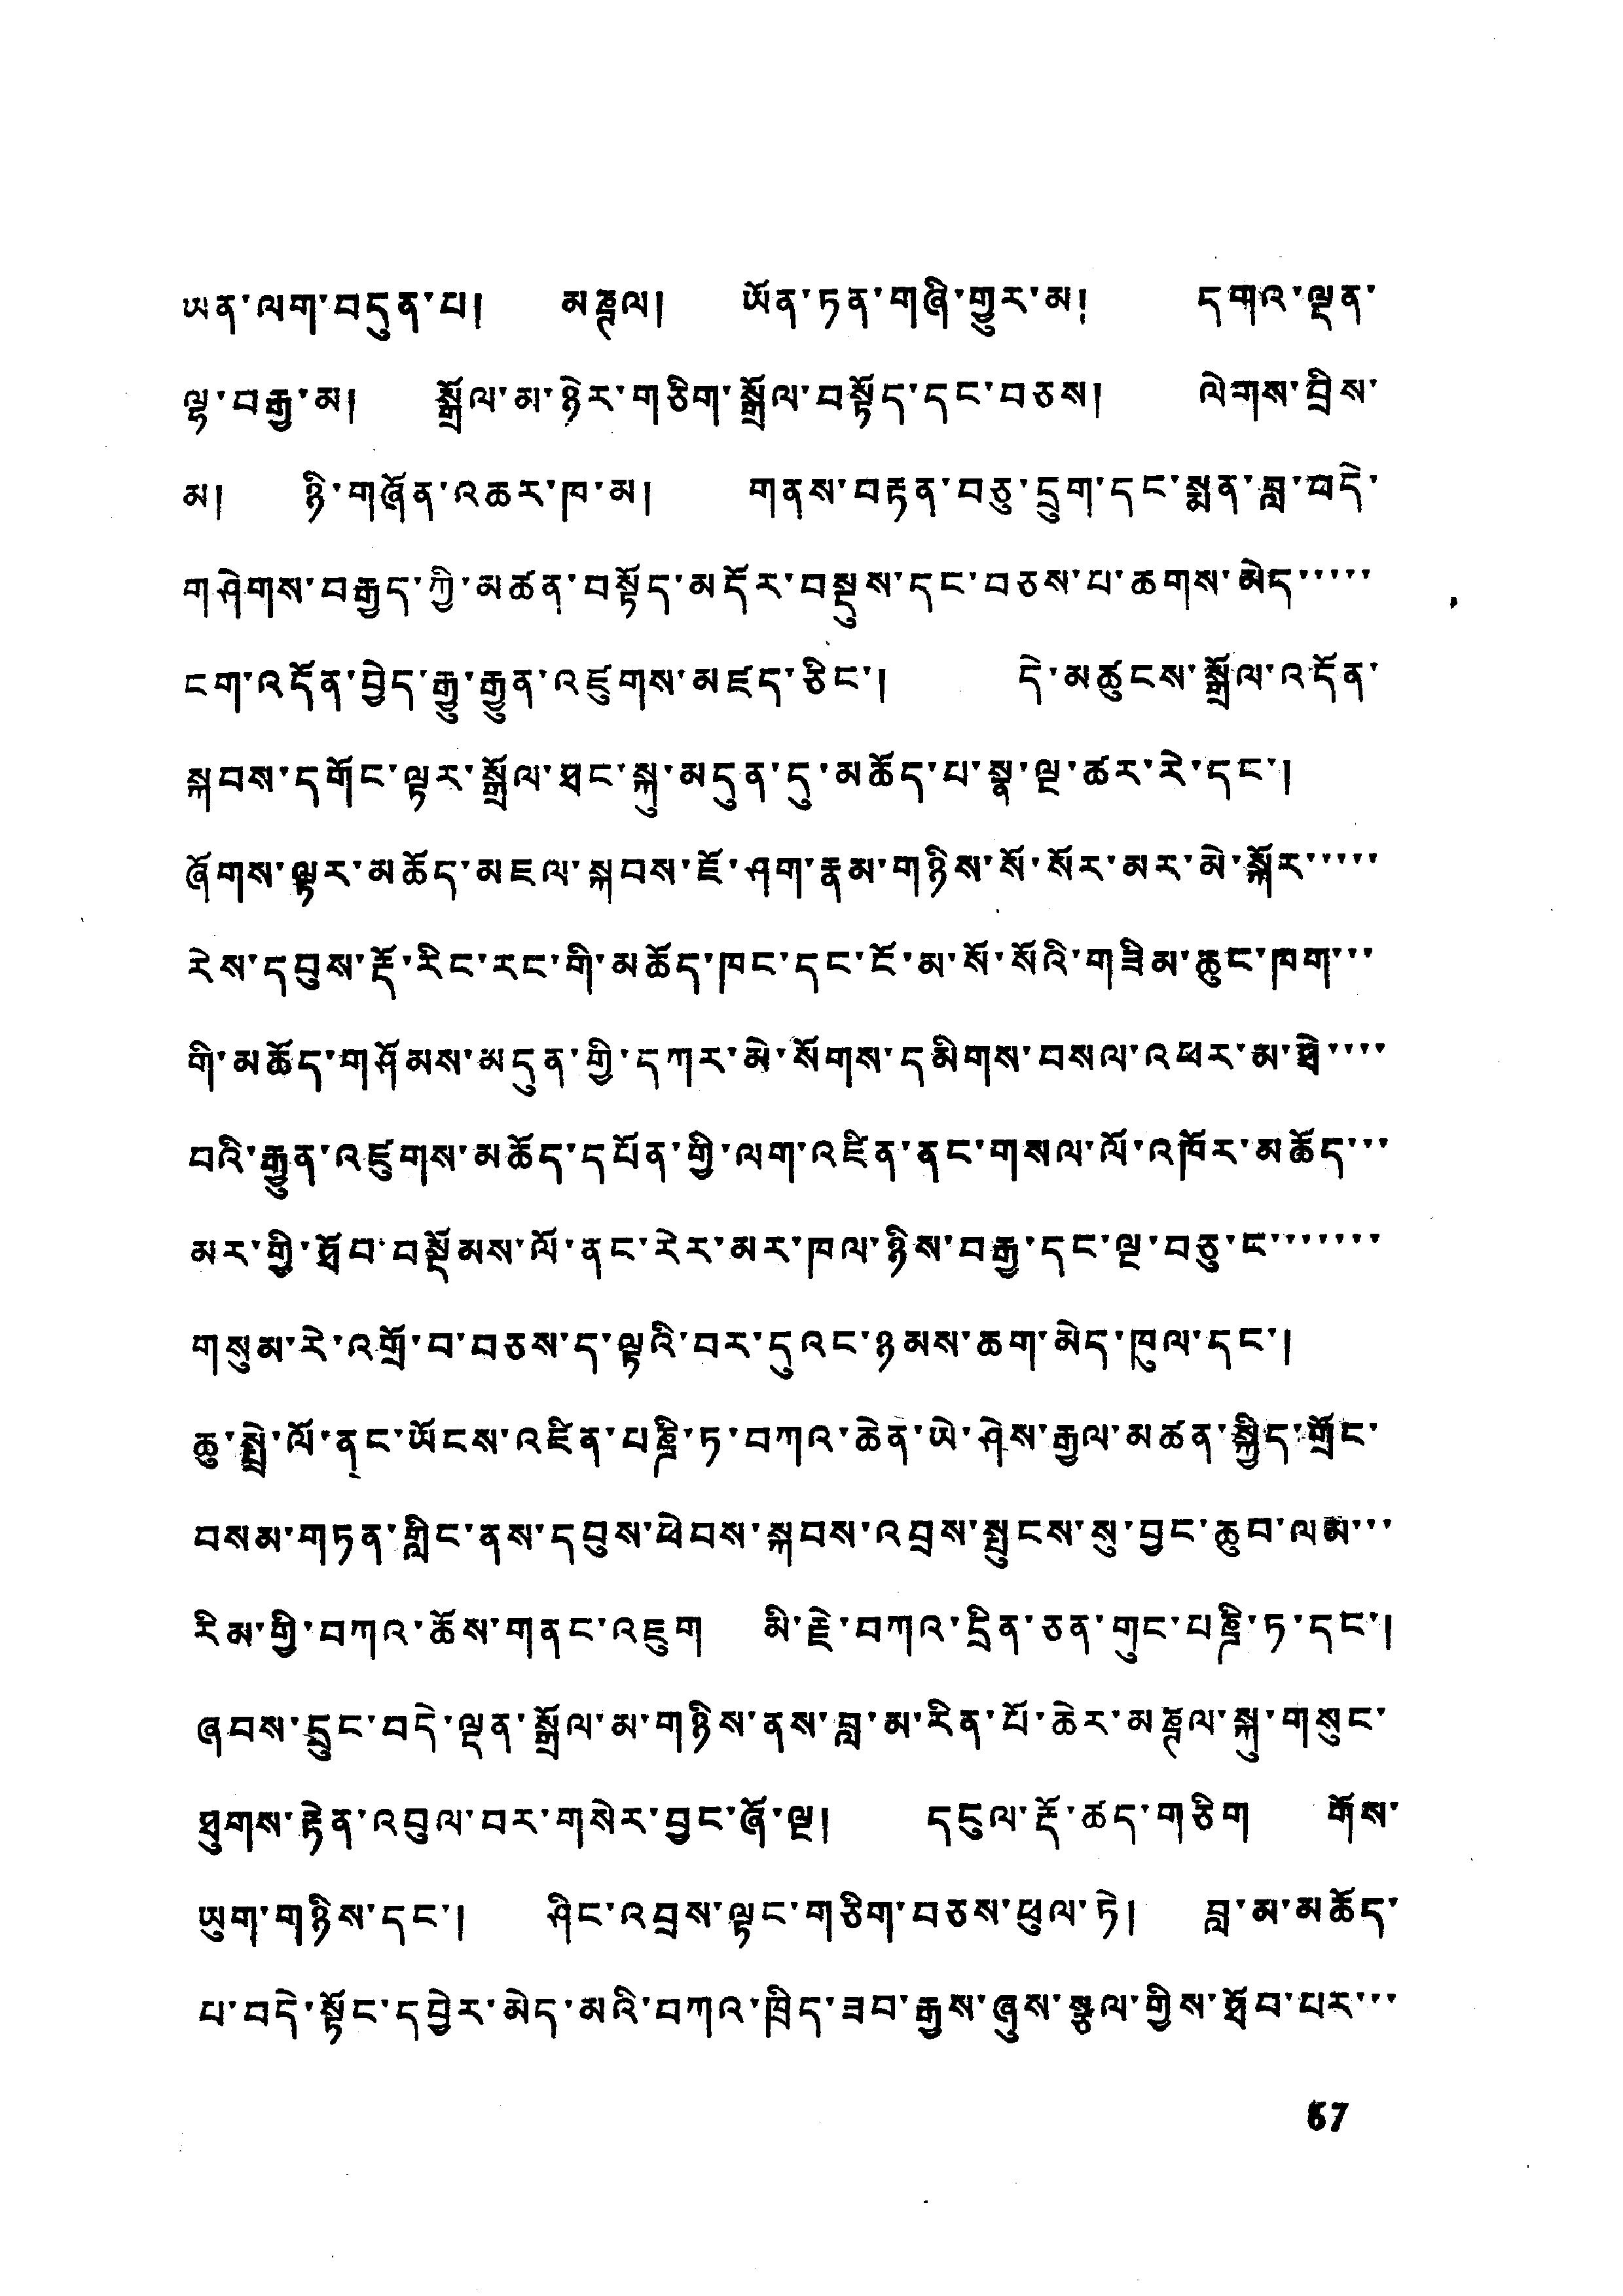ཡན་ལག་བདུན་པ་། མཎྚལ། ཡོན་ཏན་གཞི་གུ་མ། དགའ་ལྡན་
ལྷ་བརྒྱ་མ། སྒྲོལ་མ་ཉེར་གཅིག་སྒྲོལ་བསྟོད་དང་བཅས། ལེགས་བྲིས་
མ། ཉི་གཞོན་འཆར་ཁ་མ། གནས་བརྟན་བཅུ་དྲུག་དང་སྨན་བླ་བདེ་
གཤེགས་བརྒྱད་ཀྱི་མཚན་བསྟོད་མདོར་བསྡུས་དང་བཅས་པ་ཆགས་མེད་་་་་
ངག་འདོན་བྱེད་རྒྱུན་འཛུགས་མཛད་ཅིང་། དེ་མཚུངས་སྒྲོལ་འདོན་
སྐབས་དགོང་ལྟར་སྒྲོལ་ཐང་སྐུ་མདུན་དུ་མཆོད་པ་སྣ་ལྔ་ཚར་རེ་དང་།
ཞོགས་ལྟར་མཆོད་མཇལ་སྐབས་ཇོ་ཤག་རྣམ་གཉིས་སོ་སོར་མར་མེ་སྐོར་་་་་
རེས་དབུས་རྡོ་རིང་རང་གི་མཆོད་ཁང་དང་ངོ་མ་སོ་སོའི་གཟིམ་ཆུང་ཁག་་་
གི་མཆོད་གཤོམས་མདུན་གྱི་དཀར་མེ་སོགས་དམིགས་བསལ་འཕར་མ་ཐེ་་་་
བའི་རྒྱུན་འཛུགས་མཆོད་དཔོན་གྱི་ལག་འཛིན་ནང་གསལ་ལོ་འཁོར་མཆོད་་་
མར་གྱི་ཐོབ་བསྡོམས་ལོ་ནང་རེར་མར་ཁལ་ཉིས་བརྒྱ་དང་ལྔ་བཅུ་ང་་་་་་་
གསུམ་རེ་འགྲོ་བ་བཅས་ད་ལྟའི་བར་དུའང་ཉམས་ཆག་མེད་ཁུལ་དང་།
ཆུ་སྤྲེ་ལོ་ནང་ཡོངས་འཛིན་པཎྜི་ཏ་བཀའ་ཆེན་ཡེ་ཤེས་རྒྱལ་མཚན་སྐྱིད་གྲོང་
བསམ་གཏན་གླིང་ནས་དབུས་ཕེབས་སྐབས་འབྲས་སྤུངས་སུ་བྱང་ཆུབ་ལམ་་་
རིམ་གྱི་བཀའ་ཆོས་གནང་འཇུག མི་རྗེ་བཀའ་དྲིན་ཅན་གུང་པཎྜི་ཏ་དང་།
ཞབས་དྲུང་བདེ་ལྡན་སྒྲོལ་མ་གཉིས་ནས་བླ་མ་རིན་པོ་ཆེར་མཎྚལ་སྐུ་གསུང་
ཐུགས་རྟེན་འབུལ་བར་གསེར་བྱང་ཞོ་ལྔ། དངུལ་རྡོ་ཚད་གཅིག གོས་
ཡུག་གཉིས་དང་། ཤིང་འབྲས་ལྟང་གཅིག་བཅས་ཕུལ་ཏེ། བླ་མ་མཆོད་
པ་བདེ་སྟོང་དབྱེར་མེད་མའི་བཀའ་ཁྲིད་ཟབ་རྒྱས་ཞུས་སྩལ་གྱིས་ཐོབ་པར་་་
67
